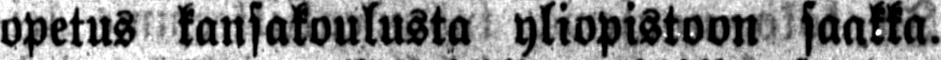opetus kansakoulusta yliopistoon saakka.
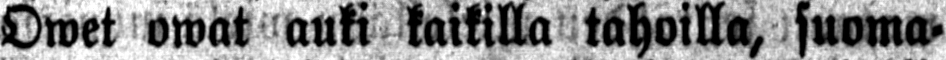Owet owat auki kaikilla tahoilla, suoma-
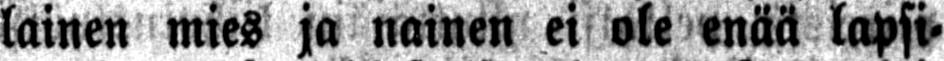lainen mies ja nainen ei ole enää lapsi-
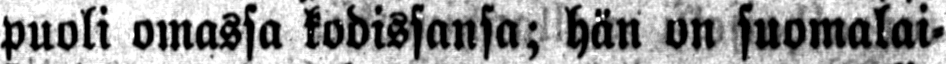puoli omassa kodissansa; hän on suomalai-
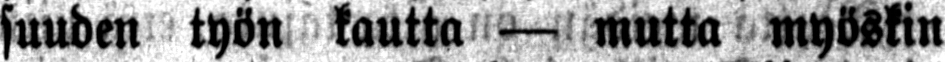suuden työn kautta — mutta myöskin
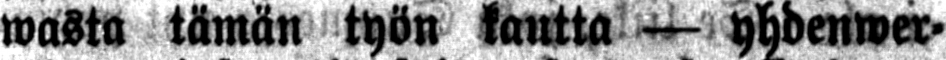wasta tämän työn kautta — yhdenwer-
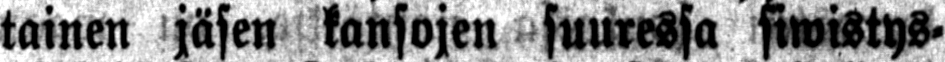tainen jäsen kansojen suuressa siwistys-
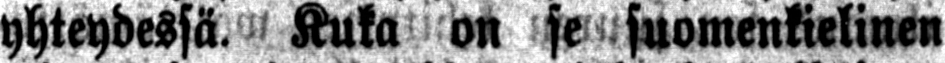yhteydessä. Kuka on se suomenkielinen
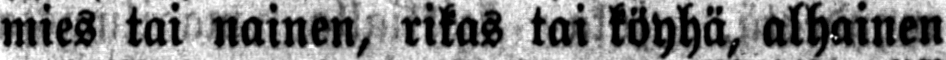mies tai nainen, rikas tai köyhä, alhainen
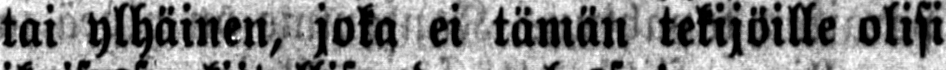tai ylhäinen, jota ei tämän tekijöille olisi
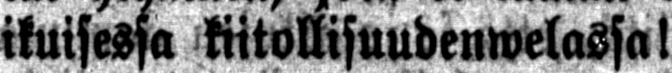ikuisessa kiitollisuudenwelassa!
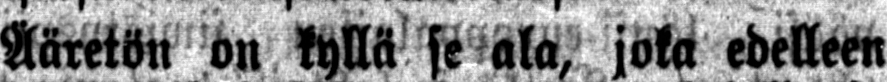Ääretön on kyllä se ala, joka edelleen
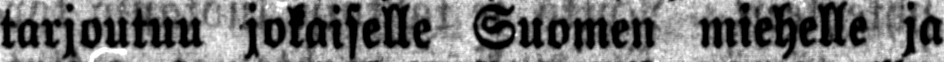tarjoutuu jokaiselle Suomen miehelle ja
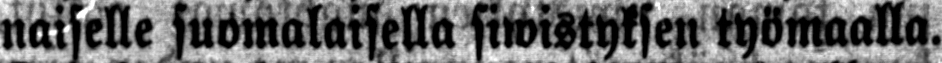naiselle suomalaisella siwistyksen työmaalla.
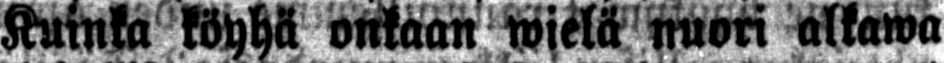Kuinka köyhä onkaan wielä nuori alkawa
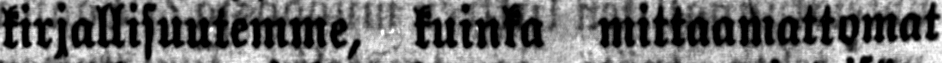kirjallisuutemme, kuinka mittaamattomat
